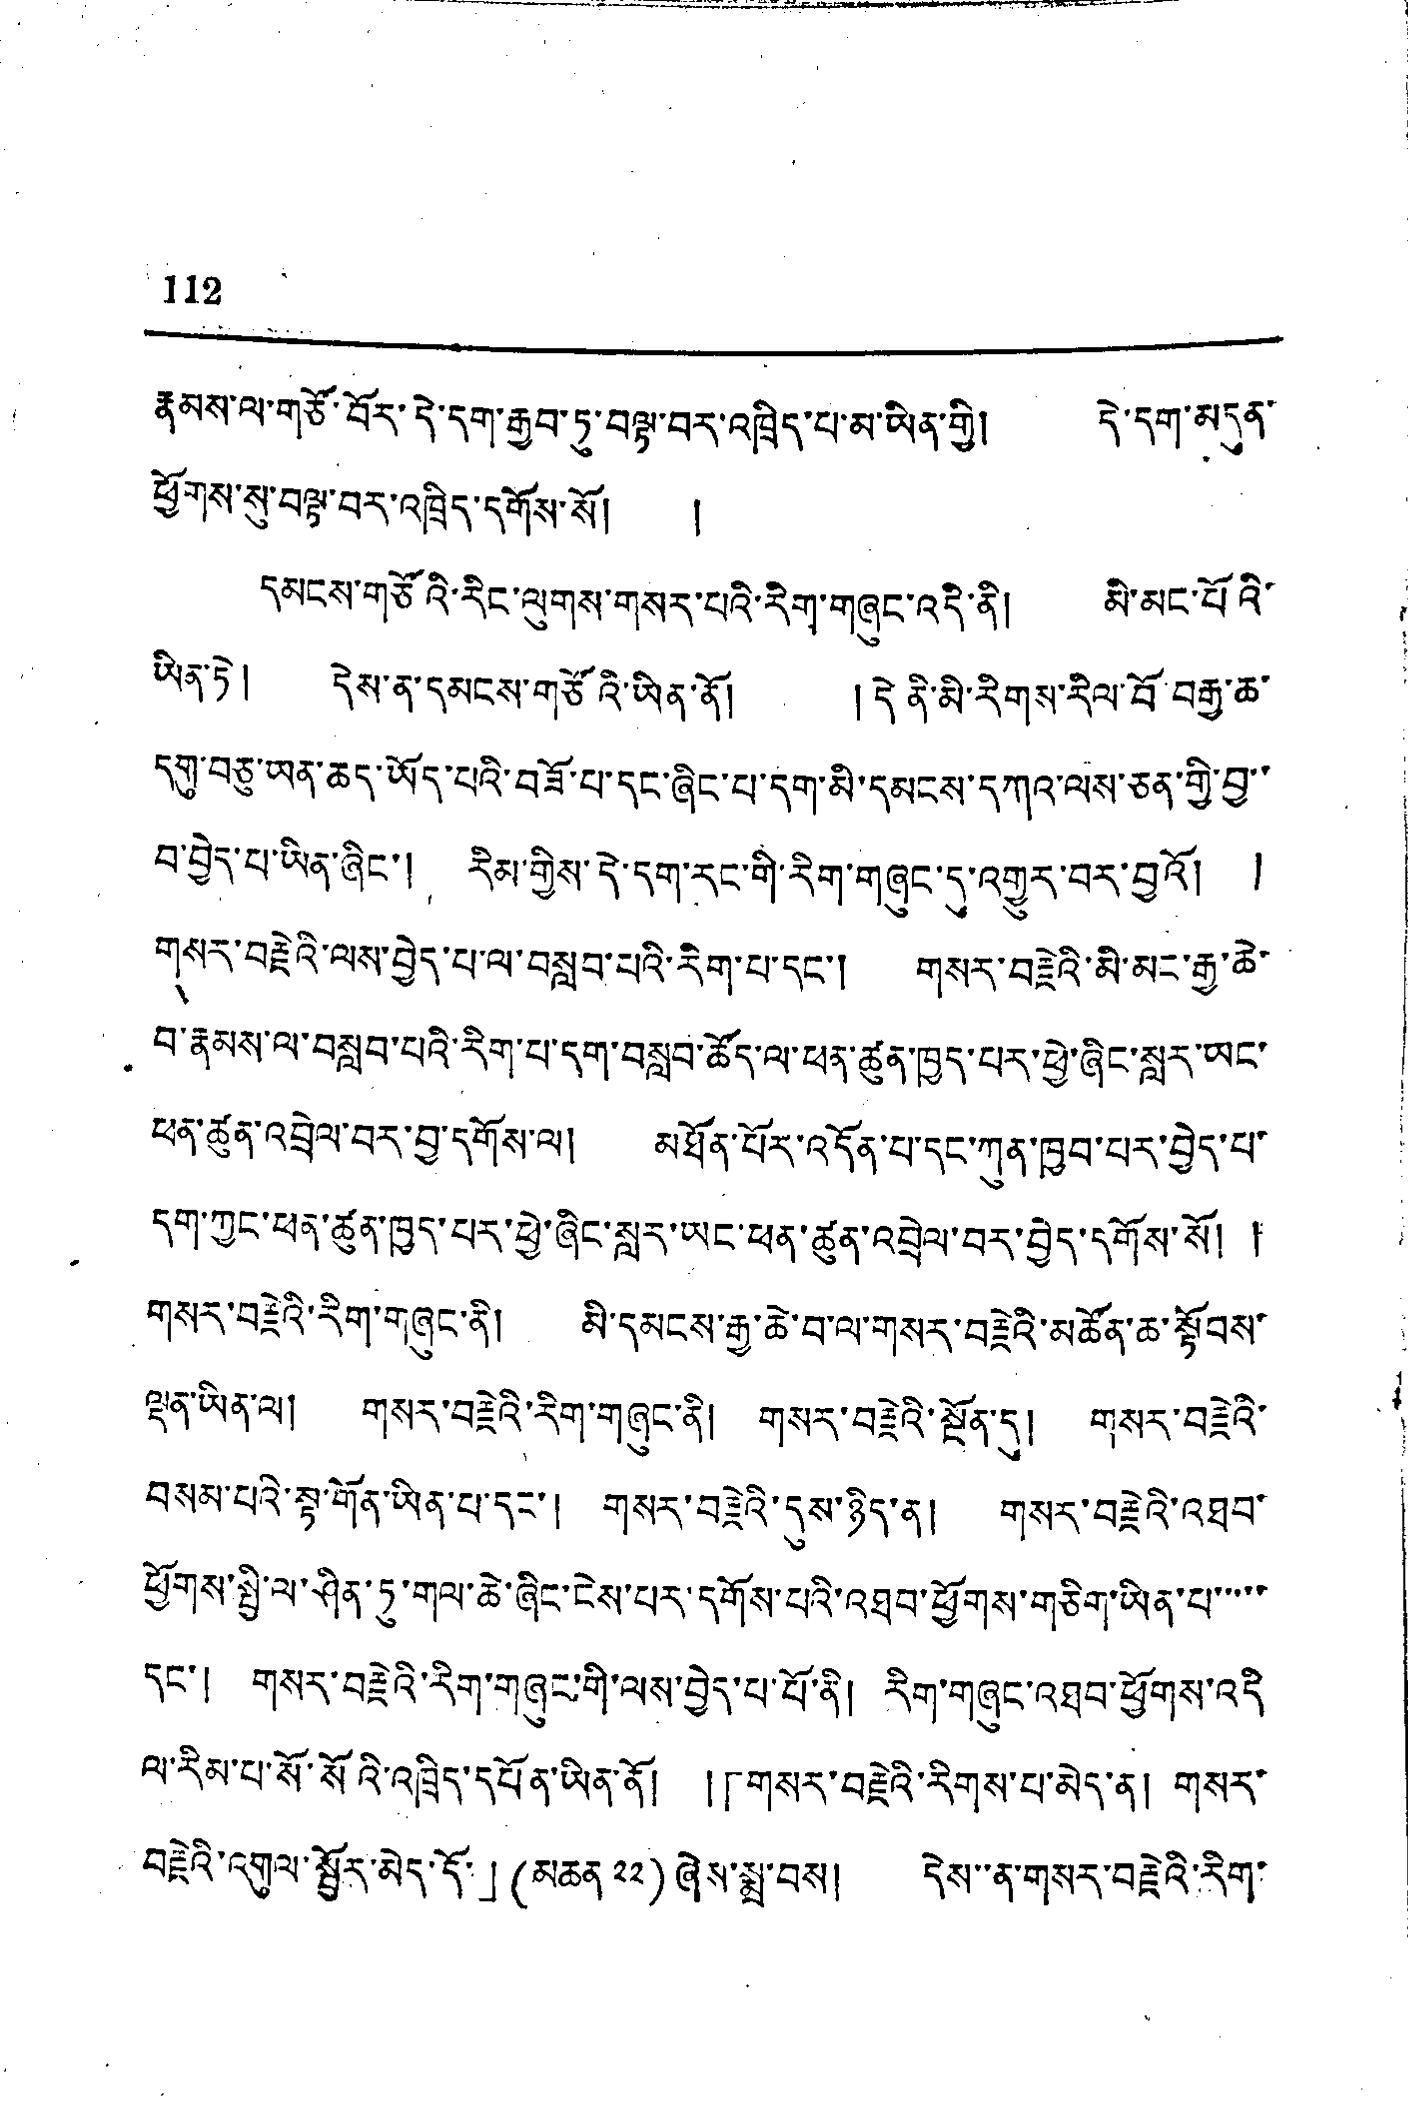112
རྣམས་ལ་གཙོ་བོར་དེ་དག་རྒྱབ་ཏུ་བལྟ་བར་འཁྲིད་པ་མ་ཡིན་གྱི། དེ་དག་མདུན་
ཕྱོགས་སུ་བལྟ་བར་འཁྲིད་དགོས་སོ། །
དམངས་གཙོའི་རིང་ལུགས་གསར་པའི་རིག་གཞུང་འདི་ནི། མི་མང་པོའི་
ཡིན་ཏེ། དེས་ན་དམངས་གཙོའི་ཡིན་ནོ། །དེ་ནི་མི་རིགས་རིལ་བོ་བརྒྱ་ཆེ་
དགུ་བཅུ་ཡན་ཆད་ཡོད་པའི་བཟོ་པ་དང་ཞིང་པ་དག་མི་དམངས་དཀའ་ལས་ཅན་གྱི་བྱ་་
བ་བྱེད་པ་ཡིན་ཞིང་། རིམ་གྱིས་དེ་དག་རང་གི་རིག་གཞུང་དུ་འགྱུར་བར་བྱའོ། །
གསར་བརྗེའི་ལས་བྱེད་པ་ལ་བསླབ་པའི་རིག་པ་དང་། གསར་བརྗེའི་མི་མང་རྒྱི་ཆེ་
བ་རྣམས་ལ་བསླབ་པའི་རིག་པ་དག་བསླབ་ཚོད་ལ་ཕན་ཚུན་ཁྱད་པར་ཕྱེ་ཞིང་སླར་ཡང་
ཕན་ཚུན་འབྲེལ་བར་བྱ་དགོས་ལ། མཐོན་པོར་འདོན་པ་དང་ཀུན་ཁྱབ་པར་བྱེད་པ་
དག་ཀྱང་ཕན་ཚུན་ཁྱད་པར་ཕྱེ་ཞིང་སླར་ཡང་ཕན་ཚུན་འབྲེལ་བར་བྱེད་དགོས་སོ། །
གསར་བརྗེའི་རིག་གཞུང་ནི། མི་དམངས་རྒྱ་ཆེ་བ་ལ་གསར་བརྗེའི་མཚོན་ཆ་སྟོབས་
ལྡན་ཡིན་ལ། གསར་བརྗེའི་རིག་གཞུང་ནི། གསར་བརྗེའི་སྔོན་དུ། གསར་བརྗེའི་
བསམ་པའི་སྟ་གོན་ཡིན་པ་དང་། གསར་བརྗེའི་དུས་ཉིད་ན། གསར་བརྗེའི་འཐབ་
ཕྱོགས་སྤྱི་ལ་ཤིན་ཏུ་གལ་ཆེ་ཞིང་ངེས་པར་དགོས་པའི་འཐབ་ཕྱོགས་གཅིག་ཡིན་པ་་་་་་
དང་། གསར་བརྗེའི་རིག་གཞུང་གི་ལས་བྱེད་པ་པོ་ནི། རིག་གཞུང་འཐབ་ཕྱོགས་འདི་
ལ་རིམ་པ་སོ་སོའི་འཁྲིད་དཔོན་ཡིན་ནོ། །「གསར་བརྗེའི་རིགས་པ་མེད་ན། གསར་
བརྗེའི་འགུལ་སྦྱོར་མེད་དོ་」(མཆན ༢༢) ཞེས་སྨྲ་བས། དེས་་ན་གསར་བརྗེའི་རིག་
